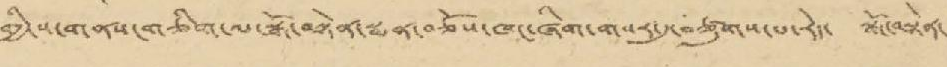གྱི་ས་གནས་གཅིག་ལ་སྒོ་བསྟེན་སྨན་བཅོས་ཁང་ཞིག་གསར་དུ་བཙུགས་པ་རེད་ སྒོ་བསྟེན་
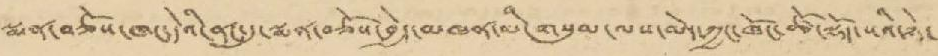སྨན་བཅོས་ཁང་དེའི་ནང་དུ་སྨན་བཅོས་བྱེད་མཁན་མི་གསུམ་ལས་མེད་ཀྱང་ཁོང་ཚོ་སྡོད་སའི་ཉེ་
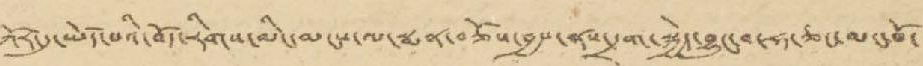ཀོར་དུ་ཡོད་པའི་བོད་རིགས་མི་དམངས་ལ་སྨན་བཅོས་བྱས་ནས་དྲག་སྐྱེད་བྱུང་བ་ཧ་ཅང་མང་པོ་
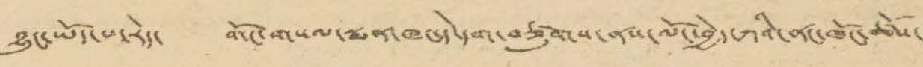བྱུང་ཡོད་པ་རེད་ གོང་གསལ་སྨན་ཁང་དེ་དག་བཙུགས་ནས་ལོ་བྱེད་ཀའི་ནང་ཁོང་ཚོས་
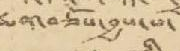སྨན་བཅོས་བྱས་པ་
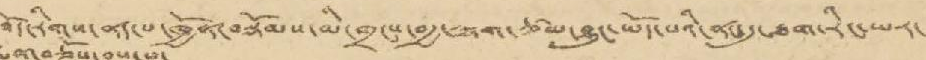བོད་རིགས་ནད་པ་ཁྱོན་བསྡོམས་མི་གྲངས་བརྒྱ་ལྷག་ཙམ་བྱུང་ཡོད་པའི་ནང་དུ་ཐག་རིང་ཡར་
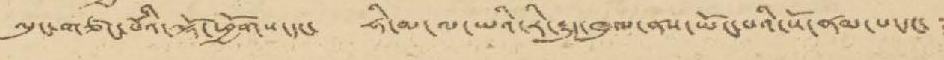ལུང་གཙང་པོའི་ལྷོ་ཕྱོགས་དང་ ཧི་མ་ལ་ཡའི་རི་རྒྱུད་ཁུལ་ནས་ཡོང་པའི་སོ་ནམ་པ་དང་
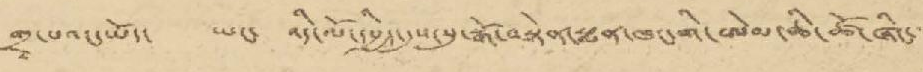གྲྭ་པའང་ཡོད་ ཡང་ འདི་ལོ་དཔྱིད་དུས་སུ་སྒོ་བསྟེན་སྨན་ཁང་གི་ཨེམ་ཆི་ཚོ་ཞིང་་་
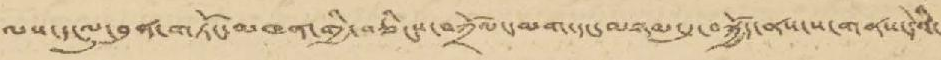ལས་དངུལ་བུན་གཏོང་མཁན་གྱི་བཅིངས་བཀྲོལ་དམག་དང་མཉམ་དུ་བསྐྱོད་ན་ས་གནས་དེའི་
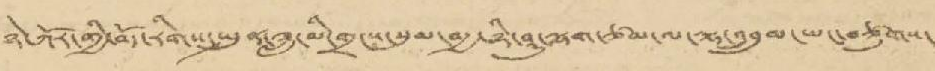ཉེ་ཀོར་གྱི་བོད་རིགས་སྤུན་ཟླ་མི་གྲངས་སུམ་བརྒྱ་ཉི་ཤུ་ལྷག་ཙམ་ལ་ལྷ་འབྲུམ་ཡང་བཙུགས་
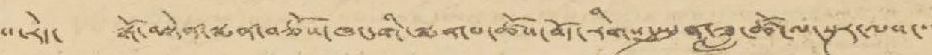པ་རེད་ སྒོ་བསྟེན་སྨན་བཅོས་ཁང་གི་སྨན་པ་ཚོས་བོད་རིགས་སྤུན་ཟླ་ཚོ་ལ་སྔར་ལས་་་
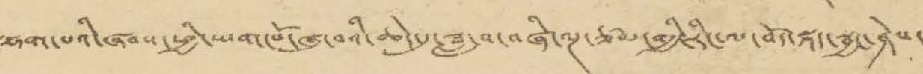ལྷག་པའི་ཞབས་ཕྱི་ཡག་པོ་ཞུ་བའི་ཆེད་དུ་ཟླ་བ་བཞི་ལྔ་ཙམ་གྱི་རིང་ལ་བོད་སྐད་སྦྱང་ཤེས་
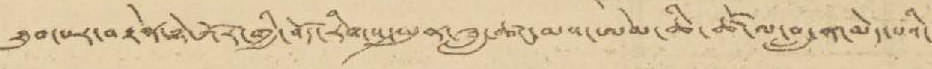ཐུབ་པར་བརྟེན་ཉེ་ཀོར་གྱི་བོད་རིགས་སྤུན་ཟླ་ཚང་མས་ཨེམ་ཆི་ཚོ་ལ་བླ་ན་མེད་པའི
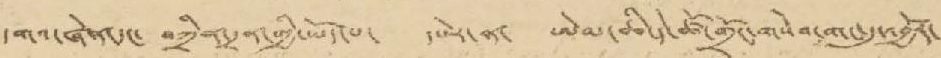དགའ་ཞེན་དང་ བཀྲིན་དྲན་གྱི་ཡོད་པ་ དཔེར་ན་ ཨེམ་ཆི་དེ་ཚོ་གྲོང་གསེབ་གང་དུ་འབྱོར་
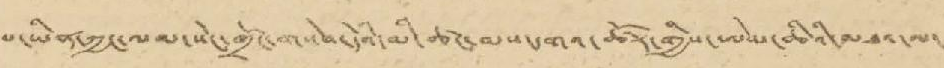པ་ཡིན་ཀྱང་ལམ་སེང་གྲོང་གསེབ་དེའི་མི་ཚང་མས་དགའ་ཚོར་གྱིས་ཨེམ་ཆིའི་མཐའ་མ་
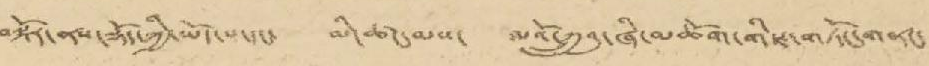བསྐོར་ནས་སྡོད་ཀྱི་ཡོད་པ་དང་ མི་ཚང་མས་ མའོ་ཀྲུའུ་ཞི་མཆོག་གི་གཏོང་གནང་
